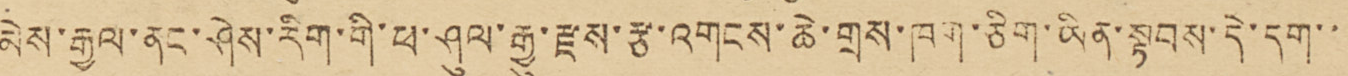མེས་རྒྱལ་ནང་ཤེས་རིག་གི་ཕ་ཤུལ་རྒྱུ་རྫས་རྩ་འགངས་ཆེ་གྲས་ཁག་ཅིག་ཡིན་སྟབས་དེ་དག་་་
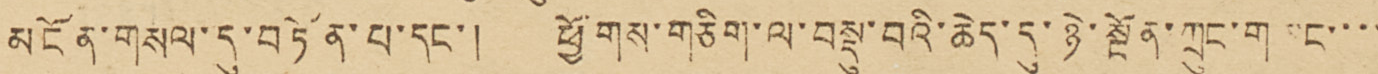མངོན་གསལ་དུ་བཏོན་པ་དང་། ཕྱོགས་གཅིག་ལ་བསྡུ་བའི་ཆེད་དུ་ཉེ་སྔོན་ཀྲུང་གཡང་་་་
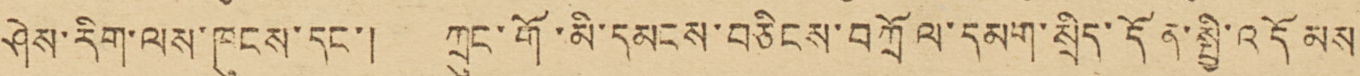ཤེས་རིག་ལས་ཁུངས་དང་། ཀྲུང་གོ་མི་དམངས་བཅིངས་བཀྲོལ་དམག་སྲིད་དོན་སྤྱི་འདོམས་
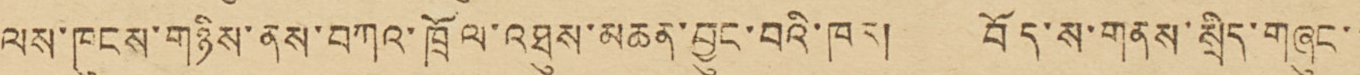ལས་ཁུངས་གཉིས་ནས་བཀའ་ཁྲོལ་འཐུས་མཆན་བྱུང་བའི་ཁར། བོད་ས་གནས་སྲིད་གཞུང་་
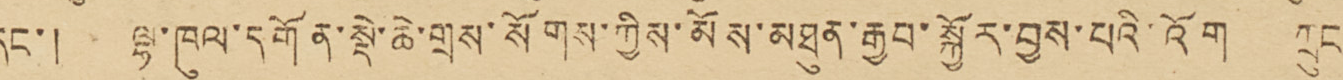དང་། ལྷ་ཁུལ་དགོན་སྡེ་ཆེ་གྲས་སོགས་ཀྱིས་མོས་མཐུན་རྒྱབ་སྐྱོར་བྱས་པའི་འོག ཀྲུང་
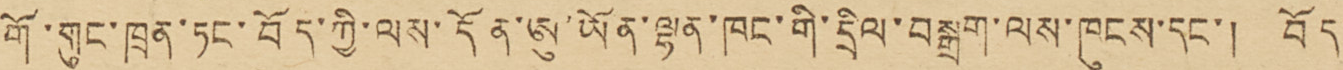གོ་གུང་ཁྲན་ཏང་བོད་ཀྱི་ལས་དོན་ཨུ་ཡོན་ལྷན་ཁང་གི་དྲིལ་བསྒྲག་ལས་ཁུངས་དང་། བོད་་
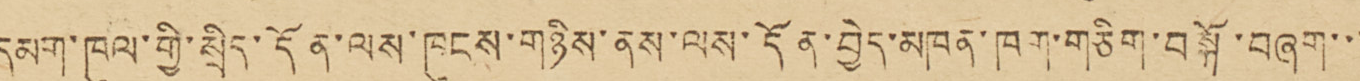དམག་ཁུལ་གྱི་སྲིད་དོན་ལས་ཁུངས་གཉིས་ནས་ལས་དོན་བྱེད་མཁན་ཁག་གཅིག་བསྐོ་བཞག་་་
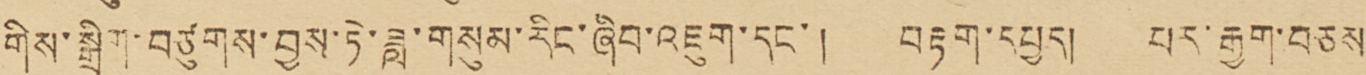གིས་སྒྲིག་བཙུགས་བྱས་ཏེ་ཟླ་གསུམ་རིང་ཞིབ་འཇུག་དང་། བརྟག་དཔྱད། པར་རྒྱག་བཅས་
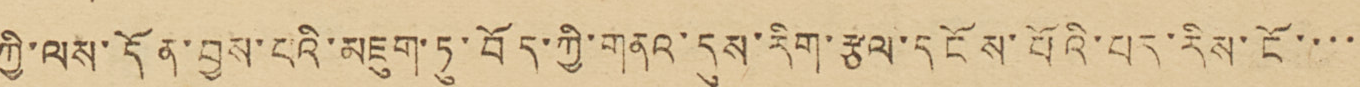ཀྱི་ལས་དོན་བྱས་པའི་མཇུག་ཏུ་བོད་ཀྱི་གནའ་དུས་རིག་རྩལ་དངོས་པོའི་པར་རིས་ངོ་་་་་
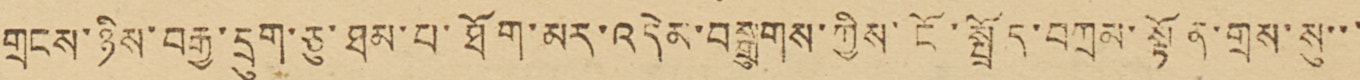གྲངས་ཉིས་བརྒྱ་དྲུག་ཅུ་ཐམ་པ་ཐོག་མར་འདེམ་བསྒྲུགས་ཀྱིས་ངོ་སྤྲོད་བཀྲམ་སྟོན་གྲས་སུ་་་་
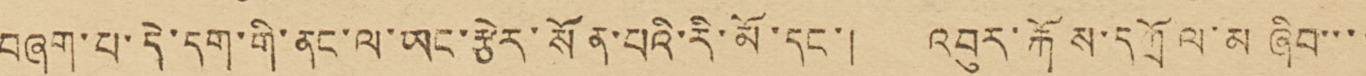བཞག་པ་དེ་དག་གི་ནང་ལ་ཡང་རྩེར་སོན་པའི་རི་མོ་དང་། འབུར་རྐོས་དཀྲོལ་མ ཞིབ་་་་
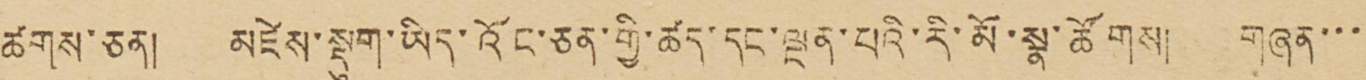ཚགས་ཅན། མཛེས་སྡུག་ཡིད་འོང་ཅན་གྱི་ཚད་དང་ལྡན་པའི་རི་མོ་སྣ་ཚོགས། གཞན་་་་
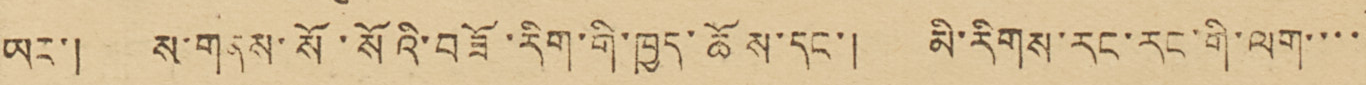ཡང་། ས་གནས་སོ་སོའི་བཟོ་རིག་གི་ཁྱད་ཆོས་དང་། མི་རིགས་རང་རང་གི་ལག་་་་་
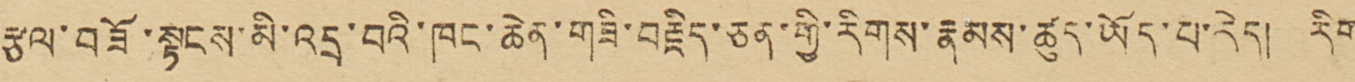རྩལ་བཟོ་སྟངས་མི་འདྲ་བའི་ཁང་ཆེན་གཟི་བརྗིད་ཅན་གྱི་རིགས་རྣམས་ཚུད་ཡོད་པ་རེད། རིག་
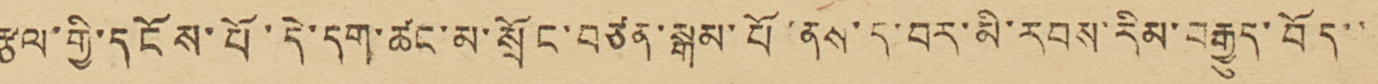རྩལ་གྱི་དངོས་པོ་དེ་དག་ཚང་མ་སྲོང་བཙན་སྒམ་པོ་ནས་ད་བར་མི་རབས་རིམ་བརྒྱུད་བོད་་
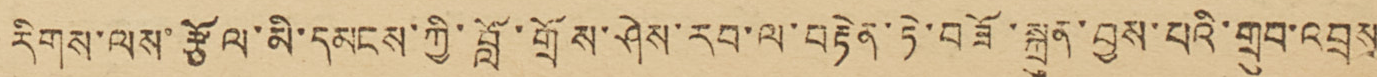རིགས་ལས་རྩོལ་མི་དམངས་ཀྱི་བློ་གྲོས་ཤེས་རབ་ལ་བརྟེན་ཏེ་བཟོ་སྐྲུན་བྱས་པའི་གྲུབ་འབྲས་
